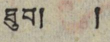ཐུབ། །
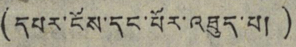(དཔར་ངོས་དང་པོར་འཐུད་པ།)
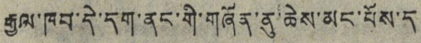རྒྱལ་ཁབ་དེ་དག་ནང་གི་གཞོན་ནུ་ཆེས་མང་པོས་ད
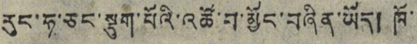རུང་ཧ་ཅང་སྡུག་པོའི་འཚོ་བ་མྱོང་བཞིན་ཡོད། ཁོ་
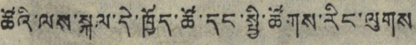ཚོའི་ལས་སྐུལ་དེ་ཁྱོད་ཚོ་དང་སྤྱི་ཚོགས་རིང་ལུགས
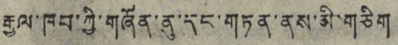རྒྱལ་ཁབ་ཀྱི་གཞོན་ནུ་དང་གཏན་ནས་མི་གཅིག
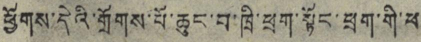ཕྱོགས་དེའི་གྲོགས་པོ་ཆུང་བ་ཁྲི་ཕྲག་སྟོང་ཕྲག་གི་ཕ
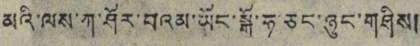མའི་ལས་ཀ་ཤོར་བའམ་ཡོད་སྒོ་ཧ་ཅང་ཉུང་གཤིས།
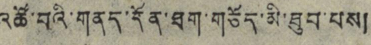འཚོ་བའི་གནད་དོན་ཐག་གཅོད་མི་ཐུབ་པས།
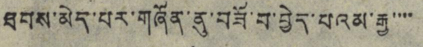ཐབས་མེད་པར་གཞོན་ནུ་བཟོ་བ་བྱེད་པའམ་རྒྱུ་་་་
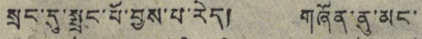སྲང་དུ་སྤྲང་པོ་བྱས་པ་རེད། གཞོན་ནུ་མང་
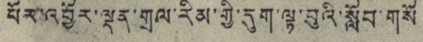པོར་འབྱོར་ལྡན་གྲལ་རིམ་གྱི་དུག་ལྟ་བུའི་སློབ་གསོ
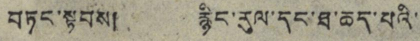བཏང་སྟབས། རྙིང་རུལ་དང་ཐ་ཆད་པའི་
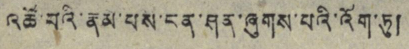འཚོ་བའི་རྣམ་པས་ངན་ཤུན་ཞུགས་པའི་འོག་ཏུ།
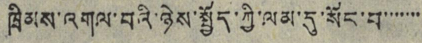ཁྲིམས་འགལ་བའི་ཉེས་སྤྱོད་ཀྱི་ལམ་དུ་སོང་བ་་་་་་་
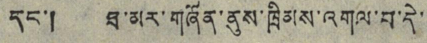དང་། ཐ་མར་གཞོན་ནུས་ཁྲིམས་འགལ་བ་དེ་
